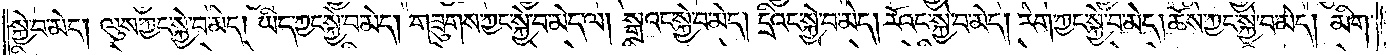སྐྱེ་བ་མེད། ལུས་ཀྱང་སྐྱེ་བ་མེད། ཡིད་ཀྱང་སྐྱེ་བ་མེད། གཟུགས་ཀྱང་སྐྱེ་བ་མེད་ལ། སྒྲའང་སྐྱེ་བ་མེད། དྲིའང་སྐྱེ་བ་མེད། རོའང་སྐྱེ་བ་མེད། རེག་ཀྱང་སྐྱེ་བ་མེད། ཆོས་ཀྱང་སྐྱེ་བ་མེད། མིག་
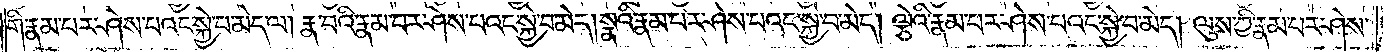གི་རྣམ་པར་ཤེས་པའང་སྐྱེ་བ་མེད་ལ། རྣ་བའི་རྣམ་པར་ཤེས་པའང་སྐྱེ་བ་མེད། སྣའི་རྣམ་པར་ཤེས་པའང་སྐྱེ་བ་མེད། ལྕེའི་རྣམ་པར་ཤེས་པའང་སྐྱེ་བ་མེད། ལུས་ཀྱི་རྣམ་པར་ཤེས་
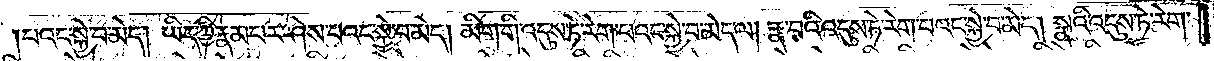པའང་སྐྱེ་བ་མེད། ཡིད་ཀྱི་རྣམ་པར་ཤེས་པའང་སྐྱེ་བ་མེད། མིག་གི་འདུས་ཏེ་རེག་པའང་སྐྱེ་བ་མེད་ལ། རྣ་བའི་འདུས་ཏེ་རེག་པའང་སྐྱེ་བ་མེད། སྣའི་འདུས་ཏེ་རེག་
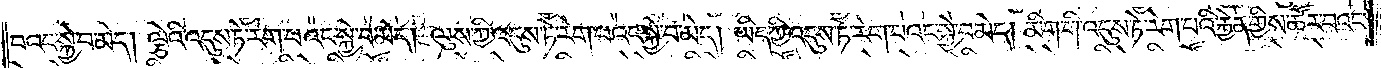པའང་སྐྱེ་བ་མེད། ལྕེའི་འདུས་ཏེ་རེག་པའང་སྐྱེ་བ་མེད། ལུས་ཀྱི་འདུས་ཏེ་རེག་པའང་སྐྱེ་བ་མེད། ཡིད་ཀྱི་འདུས་ཏེ་རེག་པའང་སྐྱེ་བ་མེད། མིག་གི་འདུས་ཏེ་རེག་པའི་རྐྱེན་གྱིས་ཚོར་བའང་
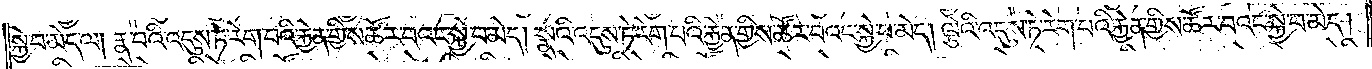སྐྱེ་བ་མེད་ལ། རྣ་བའི་འདུས་ཏེ་རེག་པའི་རྐྱེན་གྱིས་ཚོར་བའང་སྐྱེ་བ་མེད། སྣའི་འདུས་ཏེ་རེག་པའི་རྐྱེན་གྱིས་ཚོར་བའང་སྐྱེ་བ་མེད། ལྕེའི་འདུས་ཏེ་རེག་པའི་རྐྱེན་གྱིས་ཚོར་བའང་སྐྱེ་བ་མེད།
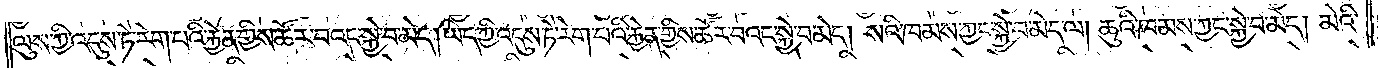ལུས་ཀྱི་འདུས་ཏེ་རེག་པའི་རྐྱེན་གྱིས་ཚོར་བའང་སྐྱེ་བ་མེད། ཡིད་ཀྱི་འདུས་ཏེ་རེག་པའི་རྐྱེན་གྱིས་ཚོར་བའང་སྐྱེ་བ་མེད། སའི་ཁམས་ཀྱང་སྐྱེ་བ་མེད་ལ། ཆུའི་ཁམས་ཀྱང་སྐྱེ་བ་མེད། མེའི་
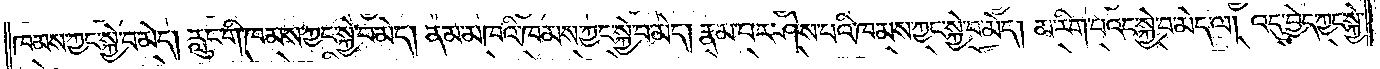ཁམས་ཀྱང་སྐྱེ་བ་མེད། རླུང་གི་ཁམས་ཀྱང་སྐྱེ་བ་མེད། ནམ་མཁའི་ཁམས་ཀྱང་སྐྱེ་བ་མེད། རྣམ་པར་ཤེས་པའི་ཁམས་ཀྱང་སྐྱེ་བ་མེད། མ་རིག་པའང་སྐྱེ་བ་མེད་ལ། འདུ་བྱེད་ཀྱང་སྐྱེ་
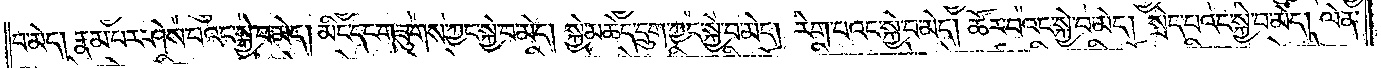བ་མེད། རྣམ་པར་ཤེས་པའང་སྐྱེ་བ་མེད། མིང་དང་གཟུགས་ཀྱང་སྐྱེ་བ་མེད། སྐྱེ་མཆེད་དྲུག་ཀྱང་སྐྱེ་བ་མེད། རེག་པའང་སྐྱེ་བ་མེད། ཚོར་བའང་སྐྱེ་བ་མེད། སྲེད་པའང་སྐྱེ་བ་མེད། ལེན་
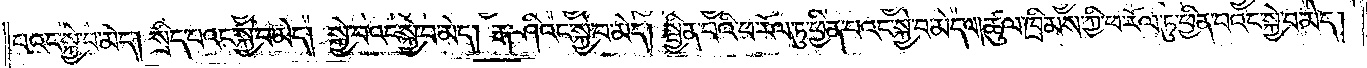པའང་སྐྱེ་བ་མེད། སྲིད་པའང་སྐྱེ་བ་མེད། སྐྱེ་བའང་སྐྱེ་བ་མེད། རྒ་ཤིའང་སྐྱེ་བ་མེད། སྦྱིན་པའི་ཕ་རོལ་ཏུ་ཕྱིན་པའང་སྐྱེ་བ་མེད་ལ། ཚུལ་ཁྲིམས་ཀྱི་ཕ་རོལ་ཏུ་ཕྱིན་པའང་སྐྱེ་བ་མེད།
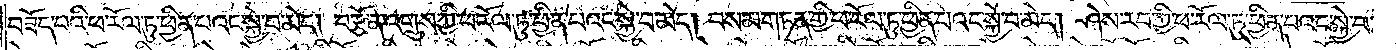བཟོད་པའི་ཕ་རོལ་ཏུ་ཕྱིན་པའང་སྐྱེ་བ་མེད། བརྩོན་འགྲུས་ཀྱི་ཕ་རོལ་ཏུ་ཕྱིན་པའང་སྐྱེ་བ་མེད། བསམ་གཏན་གྱི་ཕ་རོལ་ཏུ་ཕྱིན་པའང་སྐྱེ་བ་མེད། ཤེས་རབ་ཀྱི་ཕ་རོལ་ཏུ་ཕྱིན་པའང་སྐྱེ་བ་
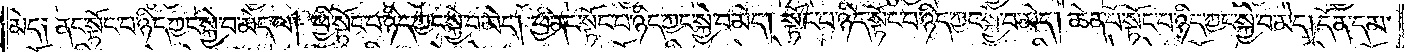མེད༏ ནང་སྟོང་པ་ཉིད་ཀྱང་སྐྱེ་བ་མེད་ལ། ཕྱི་སྟོང་པ་ཉིད་ཀྱང་སྐྱེ་བ་མེད། ཕྱི་ནང་སྟོང་པ་ཉིད་ཀྱང་སྐྱེ་བ་མེད། སྟོང་པ་ཉིད་སྟོང་པ་ཉིད་ཀྱང་སྐྱེ་བ་མེད། ཆེན་པོ་སྟོང་པ་ཉིད་ཀྱང་སྐྱེ་བ་མེད། དོན་དམ་
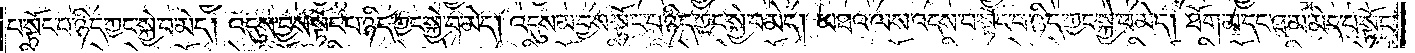པ་སྟོང་པ་ཉིད་ཀྱང་སྐྱེ་བ་མེད། འདུས་བྱས་སྟོང་པ་ཉིད་ཀྱང་སྐྱེ་བ་མེད། འདུས་མ་བྱས་སྟོང་པ་ཉིད་ཀྱང་སྐྱེ་བ་མེད། མཐའ་ལས་འདས་པ་སྟོང་པ་ཉིད་ཀྱང་སྐྱེ་བ་མེད། ཐོག་མ་དང་ཐ་མ་མེད་པ་སྟོང་
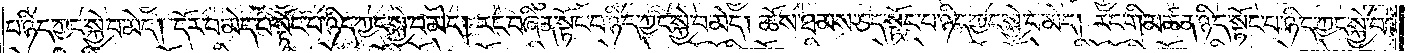པ་ཉིད་ཀྱང་སྐྱེ་བ་མེད། དོར་བ་མེད་པ་སྟོང་པ་ཉིད་ཀྱང་སྐྱེ་བ་མེད། རང་བཞིན་སྟོང་པ་ཉིད་ཀྱང་སྐྱེ་བ་མེད། ཆོས་ཐམས་ཅད་སྟོང་པ་ཉིད་ཀྱང་སྐྱེ་བ་མེད། རང་གི་མཚན་ཉིད་སྟོང་པ་ཉིད་ཀྱང་སྐྱེ་བ་
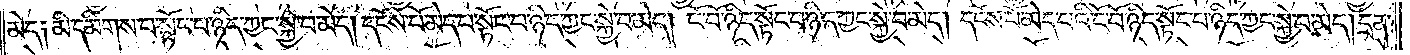མེད༏ མི་དམིགས་པ་སྟོང་པ་ཉིད་ཀྱང་སྐྱེ་བ་མེད། དངོས་པོ་མེད་པ་སྟོང་པ་ཉིད་ཀྱང་སྐྱེ་བ་མེད། ངོ་བོ་ཉིད་སྟོང་པ་ཉིད་ཀྱང་སྐྱེ་བ་མེད། དངོས་པོ་མེད་པའི་ངོ་བོ་ཉིད་སྟོང་པ་ཉིད་ཀྱང་སྐྱེ་བ་མེད། དྲན་
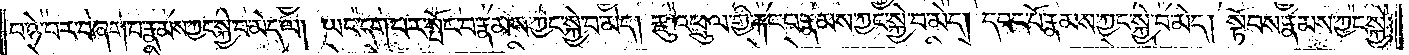པ་ཉེ་བར་བཞག་པ་རྣམས་ཀྱང་སྐྱེ་བ་མེད་ལ། ཡང་དག་པར་སྤོང་བ་རྣམས་ཀྱང་སྐྱེ་བ་མེད། རྫུ་འཕྲུལ་གྱི་རྐང་པ་རྣམས་ཀྱང་སྐྱེ་བ་མེད། དབང་པོ་རྣམས་ཀྱང་སྐྱེ་བ་མེད། སྟོབས་རྣམས་ཀྱང་སྐྱེ་
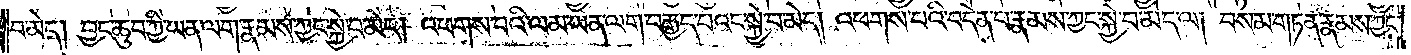བ་མེད། བྱང་ཆུབ་ཀྱི་ཡན་ལག་རྣམས་ཀྱང་སྐྱེ་བ་མེད། འཕགས་པའི་ལམ་ཡན་ལག་བརྒྱད་པའང་སྐྱེ་བ་མེད། འཕགས་པའི་བདེན་པ་རྣམས་ཀྱང་སྐྱེ་བ་མེད་ལ། བསམ་གཏན་རྣམས་ཀྱང་
